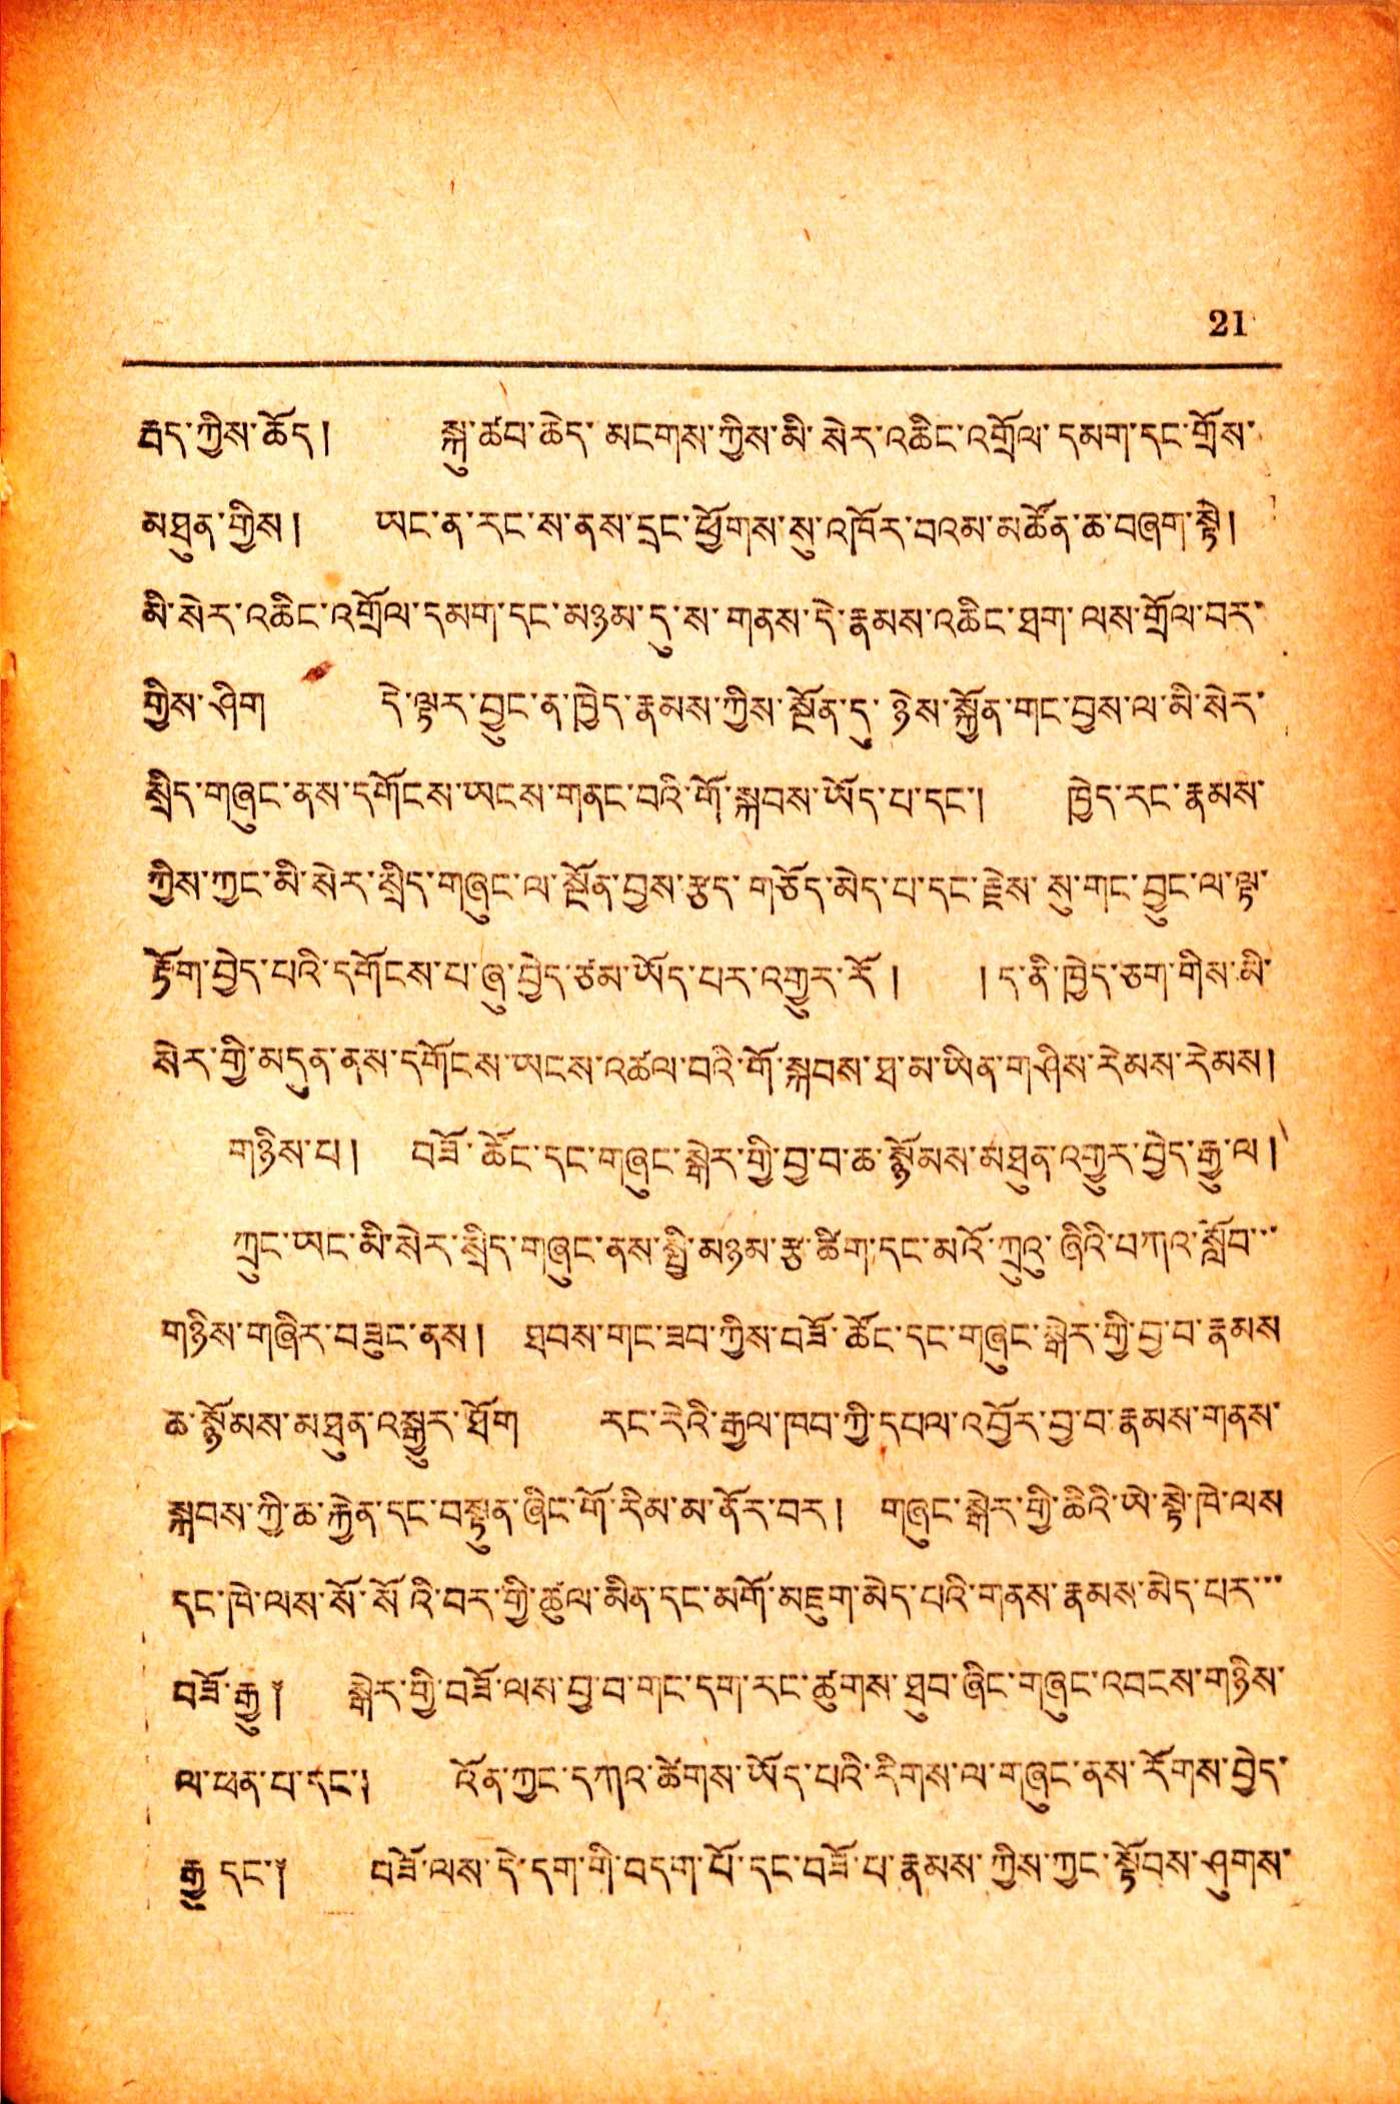21
རྦད་ཀྱིས་ཆོད ། སྐུ་ཚབ་ཆེད་མངགས་ཀྱིས་མི་སེར་འཆིང་འགྲོལ་དམག་དང་གྲོས་
མཐུན་གྱིས ། ཡང་ན་རང་ས་ནས་དྲང་ཕྱོགས་སུ་འཁོར་བའམ་མཚོན་ཆ་བཞག་སྟེ །
མི་སེར་འཆིང་འགྲོལ་དམག་དང་མཉམ་དུ་ས་གནས་དེ་རྣམས་འཆིང་ཐག་ལས་གྲོལ་བར་
གྱིས་ཤིག དེ་ལྟར་བྱུང་ན་ཁྱེད་རྣམས་ཀྱིས་སྔོན་དུ་ཉེས་སྐྱོན་གང་བྱས་ལ་མི་སེར་
སྲིད་གཞུང་ནས་དགོངས་ཡངས་གནང་བའི་གོ་སྐབས་ཡོད་པ་དང་། ཁྱེད་རང་རྣམས་
ཀྱིས་ཀྱང་མི་སེར་སྲིད་གཞུང་ལ་སྔོན་བྱས་རྩད་གཅོད་མེད་པ་དང་རྗེས་སུ་གང་བྱུང་ལ་ལྟ་
རྟོག་བྱེད་པའི་དགོངས་པ་ཞུ་བྱེད་ཙམ་ཡོད་པར་འགྱུར་རོ ། ། ད་ནི་ཁྱེད་ཅག་གིས་མི་
སེར་གྱི་མདུན་ནས་དགོངས་ཡངས་འཚལ་བའི་གོ་སྐབས་ཐ་མ་ཡིན་གཤིས་རེམས་རེམས །
གཉིས་པ། བཟོ་ཚོང་དང་གཞུང་སྒེར་གྱི་བྱ་བ་ཆ་སྙོམས་མཐུན་འགྱུར་བྱེད་རྒྱུ་ལ །
ཀྲུང་ཡང་མི་སེར་སྲིད་གཞུང་ནས་སྤྱི་མཉམ་རྩ་ཚིག་དང་མའོ་ཀྲུའུ་ཞིའི་བཀའ་སློབ་་་
གཉིས་གཞིར་བཟུང་ནས། ཐབས་གང་ཟབ་ཀྱིས་བཟོ་ཚོང་དང་གཞུང་སྒེར་གྱི་བྱ་བ་རྣམས
ཆ་སྙོམས་མཐུན་འསྒྱུར་ཐོག རང་རེའི་རྒྱལ་ཁབ་ཀྱི་དཔལ་འབྱོར་བྱ་བ་རྣམས་གནས་
སྐབས་ཀྱི་ཆ་རྐྱེན་དང་བསྟུན་ཞིང་གོ་རིམ་མ་ནོར་བར། གཞུང་སྒེར་གྱི་ཆིའི་ཡེ་སྟེ་ཁེ་ལས
དང་ཁེ་ལས་སོ་སོའི་བར་གྱི་ཚུལ་མིན་དང་མགོ་མཇུག་མེད་པའི་གནས་རྣམས་མེད་པར་་་
བཟོ་རྒྱུ ༐ སྒེར་གྱི་བཟོ་ལས་བྱ་བ་གང་དག་རང་ཚུགས་ཐུབ་ཞིང་གཞུང་འབངས་གཉིས་
ལ་ཕན་བ་དང་། འོན་ཀྱང་དཀའ་ཚེགས་ཡོད་པའི་རིགས་ལ་གཞུང་ནས་རོགས་བྱེད་
རྒྱུ་དང་༐ བཟོ་ལས་དེ་དག་གི་བདག་པོ་དང་བཟོ་པ་རྣམས་ཀྱིས་ཀྱང་སྟོབས་ཤུགས་
